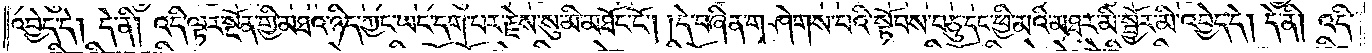འབྱེད་དེ། དེ་ནི། འདི་ལྟར་སྔོན་གྱི་མཐའ་ཉིད་ཀྱང་ཡང་དག་པར་རྗེས་སུ་མི་མཐོང་ངོ༌། །དེ་བཞིན་གཤེགས་པའི་སྟོབས་བཅུ་དང་ཕྱི་མའི་མཐར་མི་སྦྱོར་མི་འབྱེད་དེ། དེ་ནི། འདི་
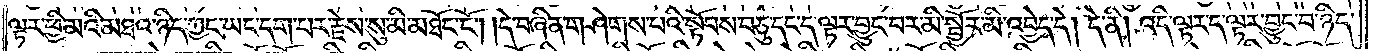ལྟར་ཕྱི་མའི་མཐའ་ཉིད་ཀྱང་ཡང་དག་པར་རྗེས་སུ་མི་མཐོང་ངོ༌། །དེ་བཞིན་གཤེགས་པའི་སྟོབས་བཅུ་དང་ད་ལྟར་བྱུང་བར་མི་སྦྱོར་མི་འབྱེད་དེ། དེ་ནི། འདི་ལྟར་ད་ལྟར་བྱུང་བ་ཉིད་
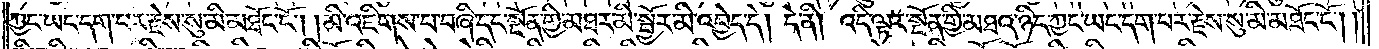ཀྱང་ཡང་དག་པར་རྗེས་སུ་མི་མཐོང་ངོ༌། །མི་འཇིགས་པ་བཞི་དང་སྔོན་གྱི་མཐར་མི་སྦྱོར་མི་འབྱེད་དེ། དེ་ནི། འདི་ལྟར་སྔོན་གྱི་མཐའ་ཉིད་ཀྱང་ཡང་དག་པར་རྗེས་སུ་མི་མཐོང་ངོ༌། །
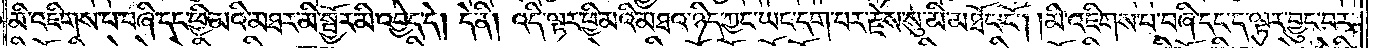མི་འཇིགས་པ་བཞི་དང་ཕྱི་མའི་མཐར་མི་སྦྱོར་མི་འབྱེད་དེ། དེ་ནི། འདི་ལྟར་ཕྱི་མའི་མཐའ་ཉིད་ཀྱང་ཡང་དག་པར་རྗེས་སུ་མི་མཐོང་ངོ༌། །མི་འཇིགས་པ་བཞི་དང་ད་ལྟར་བྱུང་བར་
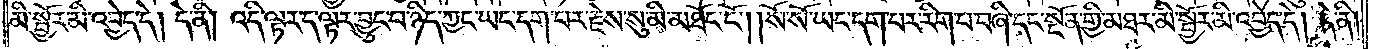མི་སྦྱོར་མི་འབྱེད་དེ། དེ་ནི། འདི་ལྟར་ད་ལྟར་བྱུང་བ་ཉིད་ཀྱང་ཡང་དག་པར་རྗེས་སུ་མི་མཐོང་ངོ༌། །སོ་སོ་ཡང་དག་པར་རིག་པ་བཞི་དང་སྔོན་གྱི་མཐར་མི་སྦྱོར་མི་འབྱེད་དེ། དེ་ནི།
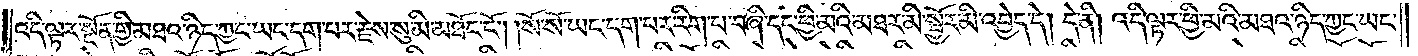འདི་ལྟར་སྔོན་གྱི་མཐའ་ཉིད་ཀྱང་ཡང་དག་པར་རྗེས་སུ་མི་མཐོང་ངོ༌། །སོ་སོ་ཡང་དག་པར་རིག་པ་བཞི་དང་ཕྱི་མའི་མཐར་མི་སྦྱོར་མི་འབྱེད་དེ། དེ་ནི། འདི་ལྟར་ཕྱི་མའི་མཐའ་ཉིད་ཀྱང་ཡང་
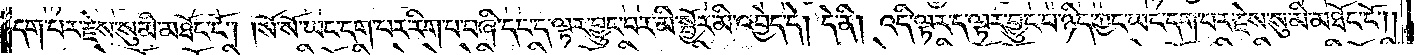དག་པར་རྗེས་སུ་མི་མཐོང་ངོ༌། །སོ་སོ་ཡང་དག་པར་རིག་པ་བཞི་དང་ད་ལྟར་བྱུང་བར་མི་སྦྱོར་མི་འབྱེད་དེ། དེ་ནི། འདི་ལྟར་ད་ལྟར་བྱུང་བ་ཉིད་ཀྱང་ཡང་དག་པར་རྗེས་སུ་མི་མཐོང་ངོ༌། །
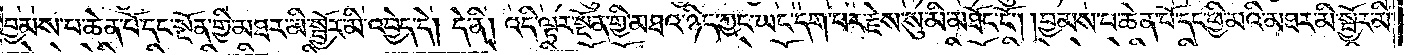བྱམས་པ་ཆེན་པོ་དང་སྔོན་གྱི་མཐར་མི་སྦྱོར་མི་འབྱེད་དེ། དེ་ནི། འདི་ལྟར་སྔོན་གྱི་མཐའ་ཉིད་ཀྱང་ཡང་དག་པར་རྗེས་སུ་མི་མཐོང་ངོ༌། །བྱམས་པ་ཆེན་པོ་དང་ཕྱི་མའི་མཐར་མི་སྦྱོར་མི་
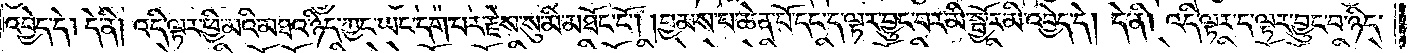འབྱེད་དེ། དེ་ནི། འདི་ལྟར་ཕྱི་མའི་མཐའ་ཉིད་ཀྱང་ཡང་དག་པར་རྗེས་སུ་མི་མཐོང་ངོ༌། །བྱམས་པ་ཆེན་པོ་དང་ད་ལྟར་བྱུང་བར་མི་སྦྱོར་མི་འབྱེད་དེ། དེ་ནི། འདི་ལྟར་ད་ལྟར་བྱུང་བ་ཉིད་
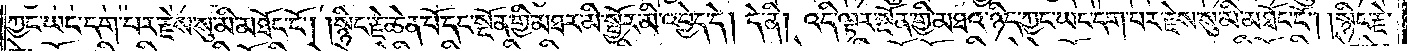ཀྱང་ཡང་དག་པར་རྗེས་སུ་མི་མཐོང་ངོ༌། །སྙིང་རྗེ་ཆེན་པོ་དང་སྔོན་གྱི་མཐར་མི་སྦྱོར་མི་འབྱེད་དེ། དེ་ནི། འདི་ལྟར་སྔོན་གྱི་མཐའ་ཉིད་ཀྱང་ཡང་དག་པར་རྗེས་སུ་མི་མཐོང་ངོ༌། །སྙིང་རྗེ་
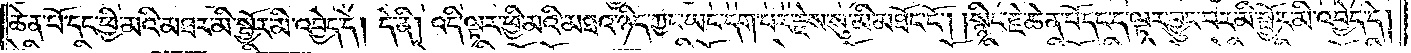ཆེན་པོ་དང་ཕྱི་མའི་མཐར་མི་སྦྱོར་མི་འབྱེད་དེ། དེ་ནི། འདི་ལྟར་ཕྱི་མའི་མཐའ་ཉིད་ཀྱང་ཡང་དག་པར་རྗེས་སུ་མི་མཐོང་ངོ༌། །སྙིང་རྗེ་ཆེན་པོ་དང་ད་ལྟར་བྱུང་བར་མི་སྦྱོར་མི་འབྱེད་དེ།
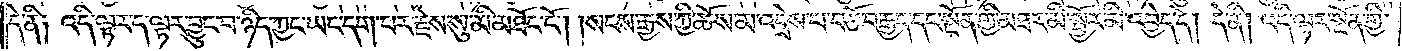དེ་ནི༑ འདི་ལྟར་ད་ལྟར་བྱུང་བ་ཉིད་ཀྱང་ཡང་དག་པར་རྗེས་སུ་མི་མཐོང་ངོ༌། །སངས་རྒྱས་ཀྱི་ཆོས་མ་འདྲེས་པ་བཅོ་བརྒྱད་དང་སྔོན་གྱི་མཐར་མི་སྦྱོར་མི་འབྱེད་དེ། དེ་ནི། འདི་ལྟར་སྔོན་གྱི་
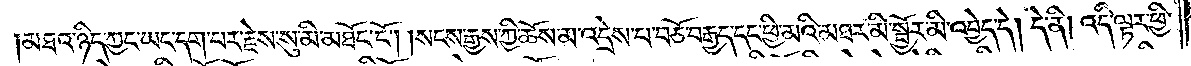མཐའ་ཉིད་ཀྱང་ཡང་དག་པར་རྗེས་སུ་མི་མཐོང་ངོ༌། །སངས་རྒྱས་ཀྱི་ཆོས་མ་འདྲེས་པ་བཅོ་བརྒྱད་དང་ཕྱི་མའི་མཐར་མི་སྦྱོར་མི་འབྱེད་དེ། དེ་ནི། འདི་ལྟར་ཕྱི་
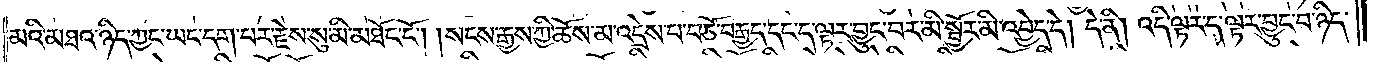མའི་མཐའ་ཉིད་ཀྱང་ཡང་དག་པར་རྗེས་སུ་མི་མཐོང་ངོ༌། །སངས་རྒྱས་ཀྱི་ཆོས་མ་འདྲེས་པ་བཅོ་བརྒྱད་དང་ད་ལྟར་བྱུང་བར་མི་སྦྱོར་མི་འབྱེད་དེ། དེ་ནི། འདི་ལྟར་ད་ལྟར་བྱུང་བ་ཉིད་
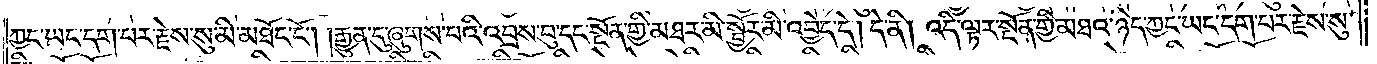ཀྱང་ཡང་དག་པར་རྗེས་སུ་མི་མཐོང་ངོ༌། །རྒྱུན་དུ་ཞུགས་པའི་འབྲས་བུ་དང་སྔོན་གྱི་མཐར་མི་སྦྱོར་མི་འབྱེད་དེ། དེ་ནི། འདི་ལྟར་སྔོན་གྱི་མཐའ་ཉིད་ཀྱང་ཡང་དག་པར་རྗེས་སུ་
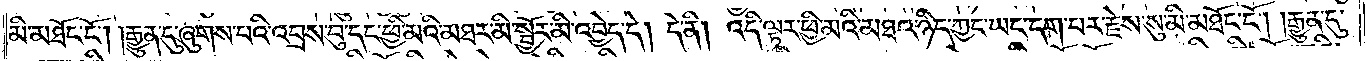མི་མཐོང་ངོ༌། །རྒྱུན་དུ་ཞུགས་པའི་འབྲས་བུ་དང་ཕྱི་མའི་མཐར་མི་སྦྱོར་མི་འབྱེད་དེ། དེ་ནི། འདི་ལྟར་ཕྱི་མའི་མཐའ་ཉིད་ཀྱང་ཡང་དག་པར་རྗེས་སུ་མི་མཐོང་ངོ༌། །རྒྱུན་དུ་
